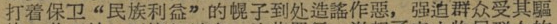打着保卫“民族利益”的幌子到处造謠作惡，强迫肝众受其驅
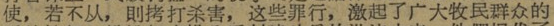使，若不从，則拷打杀害，这些罪行，激起了广大牧民群众的
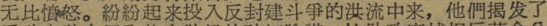无比憤怒。紛紛起来投入反封建斗争的洪流中来，他們揭发了
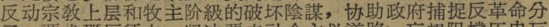反动宗敎上层和牧主阶級的破坏陰謀，协助政府捕捉反革命分
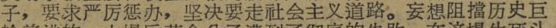子，要求产厉惩办，坚决要走社会主义道路。妄想阻擋历史巨
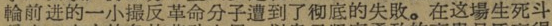輪前进的一小撮反革命分子遭到了彻底的失敗。在这場生死斗
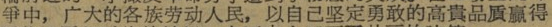爭中，广大的各族劳动人民，以自己坚定勇敢的高貴品貭赢得
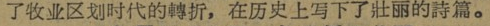了牧业区划时代的轉折， 在历史上写下了壯丽的詩篇。
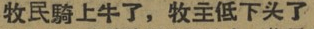牧民騎上牛了，牧主低下头了
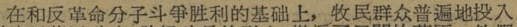在和反革命分子斗爭胜利的基础上，牧民群众普遍地投入
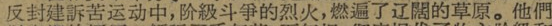反封建訴苦运动中，阶級斗爭的烈火，燃遍了辽闊的草原。他們
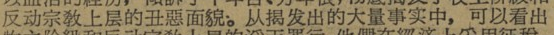反动宗敎上层的丑惡面貌。从揭发出的大量事实中，可以看出
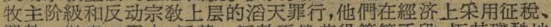牧主阶級和反动宗敎上层的滔天罪行，他們在經济上采用征稅、
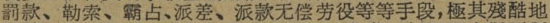罰款、勒索、霸占、派差、派款无偿劳役等等手段，極其残酷地
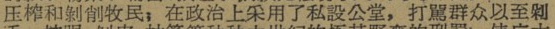压榨和剝削牧民；在政治上采用了私設公堂，打駡群众以至剁
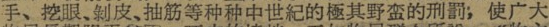手、挖眼、剝皮、抽筋等种种中世纪的極其野蛮的刑罰，使广大
